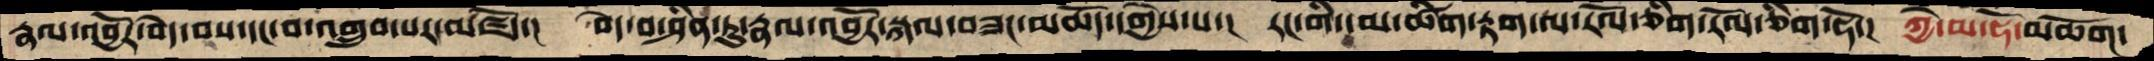རྣལ་འབྱོར་བདེ་བས་དང་བ་འགྲུབ་པར་མཛོད་།  བདེ་བ་ཤིན་ཏུ་རྣལ་འབྱོར་སྐལ་བཟང་མཆོད་དགྱེས་པ་།  རང་གི་དམ་ཚིག་རྟག་ལ་རོལ་ཅིག་རོལ་ཅིག་ཧོ་།  ཀྱེ་མ་ཧོ་མཆོག་
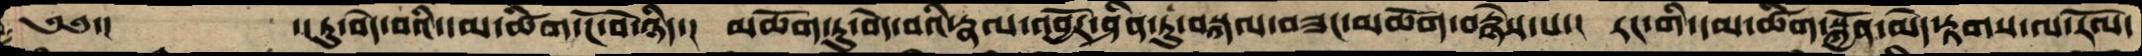༄༅་།    ་།ཏུ་བདེ་བའི་དམ་ཚིག་ངོ་བོ་ནི་།  མཆོག་ཏུ་དགེ་བའི་རྣལ་འབྱོར་ཤིན་ཏུ་བསྐལ་བཟང་མཆོག་བརྙེས་པ་།  རང་གི་དམ་ཚིག་སྐྱོན་མེད་རྟགས་ལ་རོལ་།
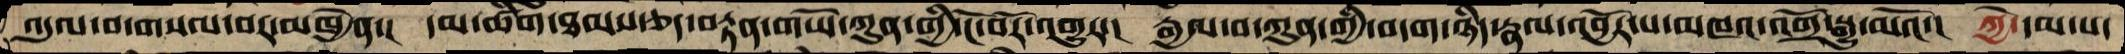འདུལ་བ་གསལ་བར་མཁྱེན་།  དམ་ཚིག་ཐམས་ཅད་བརྟན་གཡོ་ཀུན་གྱི་ངོ་བོར་འགྱུར་།  རྒྱལ་བ་ཀུན་གྱི་བདག་ཉིད་རྣལ་འབྱོར་པ་མཁའ་འགྲོ་སྒྱུ་མའོ་།  ཀྱེ་དམ་པ་
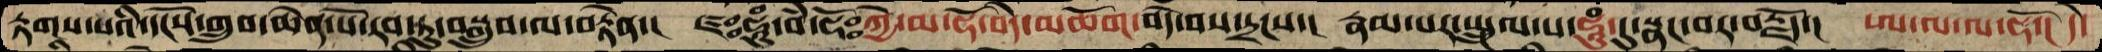རྟགས་པའི་དངོས་གྲུབ་ཆེན་པོ་རབ་ཏུ་བསྒྲུབ་ལ་བརྟེན་།  ཛཿཧཱུཾ་བཾ་ཧོཿཀྱེ་མ་ཧོ་བདེ་མཆོག་བདེ་བས་དྲངས་།  རྣམ་པར་སྤྲུལ་པ་ཧཱུཾ་དུ་སྣང་བར་བརྗོད་།  ཨ་ལ་ལ་ཧོ་།  དེ་
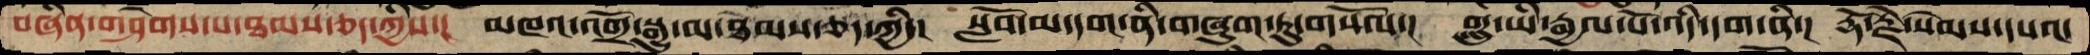བཞིན་གཤེགས་པ་ཐམས་ཅད་ཀྱིས་།  མཁའ་འགྲོ་སྒྱུ་མ་ཐམས་ཅད་ཀྱི་།  སློབ་མ་དག་ནི་གཞུག་ཏུ་གསོལ་།  གླུ་ཡི་རྒྱལ་པོ་འདི་དག་ནི་།  རྡོ་རྗེ་སེམས་དཔའ་
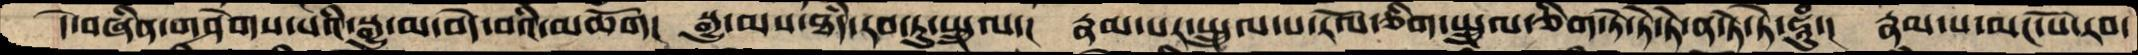དེ་བཞིན་གཤེགས་པའི་སྒྱུ་མ་བདེ་བའི་མཆོག།  སྒྱུ་མས་ཐཾད་རབ་ཏུ་སྤྲུལ་།  རྣམ་པར་སྤྲུལ་པ་རོལ་ཅིག་སྤྲུལ་ཅིག་ཏེ་ཏེ་ཏེ་ན་ཏེ་ཏེ་ཧཱུཾ་།  རྣམ་པ་མང་པོ་རབ་
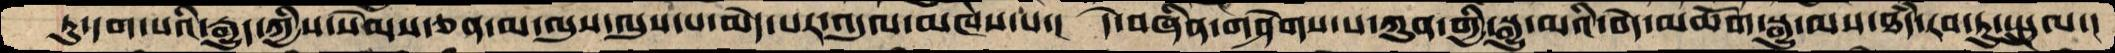ཏུ་དག་པའི་རྒྱུད་ཀྱིས་སེམས་ཅན་མ་ལུས་ལུས་པ་མེད་པར་འདུལ་མཁས་པ་།  དེ་བཞིན་གཤེགས་པ་ཀུན་གྱི་སྒྱུ་མའི་བདེ་མཆོག་སྒྱུ་མས་ཐཾད་རབ་ཏུ་སྤྲུལ་།
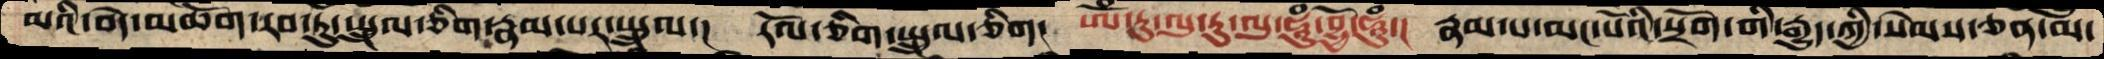མའི་བདེ་མཆོག་རབ་ཏུ་སྤྲུལ་ཅིག་རྣམ་པར་སྤྲུལ་།  རོལ་ཅིག་སྤྲུལ་ཅིག། ཨོཾ་རུ་ལུ་རུ་ལུ་ཧཱུཾ་བྷྱོ་ཧཱུཾ་།  རྣམ་པ་མང་པོའི་སྲོག་གི་རྒྱུད་ཀྱི་སེམས་ཅན་མ་
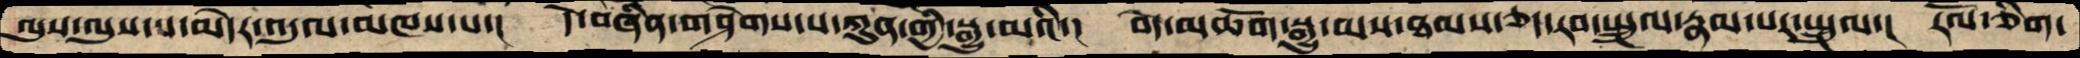ལུས་ལུས་པ་མེདར་འདུལ་མཁས་པ་།  དེ་བཞིན་གཤེགས་པ་ཀུན་གྱི་སྒྱུ་མའི་།  བདེ་མཆོག་སྒྱུ་མས་ཐམས་ཅད་རབ་སྤྲུལ་རྣམ་པར་སྤྲུལ་།  རོལ་ཅིག་
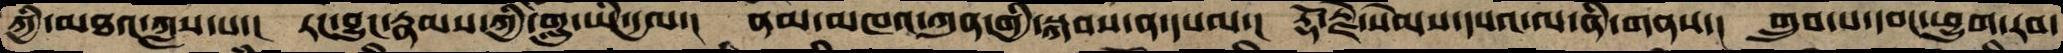ཀྱི་མཐའ་ཀླས་པ་།  རང་བྱུང་རྣམས་ཀྱི་གླུ་ཡི་དྱལ་།  ནམ་མཁའ་ཀུན་གྱི་སྐབས་ན་དཔལ་།  རྡོ་རྗེ་སེམས་དཔའ་ལ་ནི་གནས་།  གྲུབ་པ་དབང་ཕྱུག་རབ་
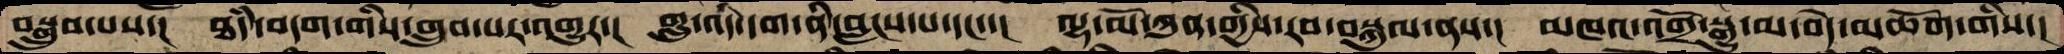བསྒྲུབ་པས་།  ཐཾད་བདག་གིས་གྲུབ་པར་འགྱུར་།  གླུ་འདི་དག་ནི་བླངས་པ་དང་་།  ལྷ་མོ་ཀུན་གྱིས་རབ་བསྐུལ་ནས་།  མཁའ་འགྲོ་སྒྱུ་མ་བདེ་མཆོག་གིས་།
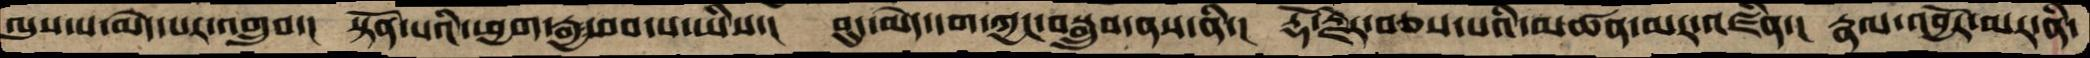ལུས་པ་མེད་པར་འགྲུབ་།  སྟོན་པའི་ཕྱག་རྒྱ་བབ་པ་ཡིས་།  བུད་མེད་དག་ཀྱང་བསྒྲུབ་ནས་ནི་།  རྡོ་རྗེར་བཅས་པའི་མཚན་མར་འཛིན་།  རྣལ་འབྱོར་མར་ནི་
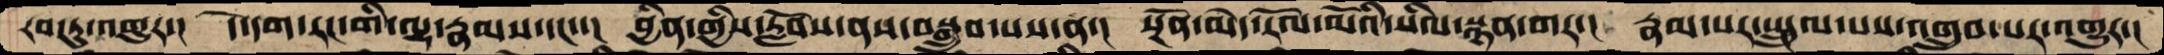རབ་ཏུ་འགྱུར་།  དེ་དག་རང་གི་ལྷ་རྣམས་དང་་།  བྱིན་གྱིས་རློབས་ནས་བསྒྲུབ་པས་ན་།  སྔོན་མེད་རོལ་མོའི་སིལ་སྙན་གར་།  རྣམ་པར་སྤྲུལ་པས་འགྲུབ་པར་འགྱུར་།
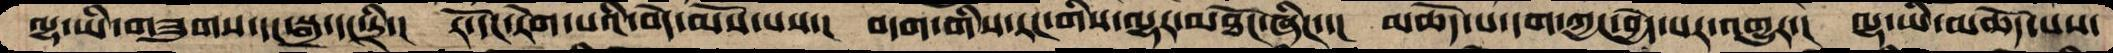ལྷ་ཡི་གཟུགས་དང་སྒྲ་དང་དྲི་།  རོ་དང་རེག་པའི་བདེ་མོས་པས་།  བདག་གིས་རང་གིས་ལྷར་མཐོང་ཞིང་་།  མཆོད་པ་དག་ཀྱང་བྱེད་པར་འགྱུར་།   ལྷ་ཡི་མཆོད་པས་
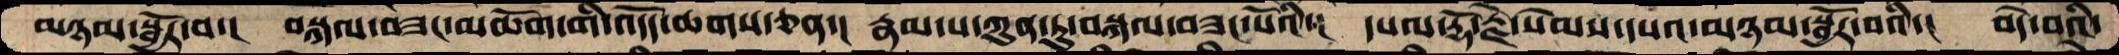མཉམ་སྦྱོར་བ་།    བསྐལ་བཟང་མཆོག་གི་འདདོ་ཆགས་ཅན་།  རྣམ་པ་ཀུན་ཏུ་བསྐལ་བཟང་པོའི་།  དཔལ་རྡོ་རྗེ་སེམས་དཔའ་མཉམ་སྦྱོར་བའི་།  བདེ་བའི་
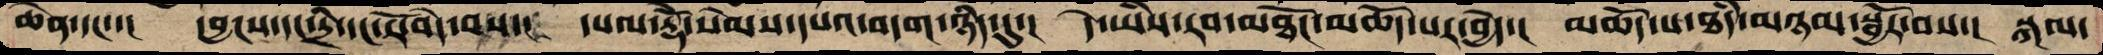ཆེན་དང་་།   དབྱངས་དང་དྲི་དང་རོ་བདེ་བས་།  དཔལ་རྡོེ་སེམས་དཔའ་བདག་ཉིད་དུ་།   དེ་ཡིས་རབ་མཐོང་མཆོད་པར་བྱེད་།  མཆོད་པ་ཐཾད་མཉམ་སྦྱོར་བས་།  སྐལ་
